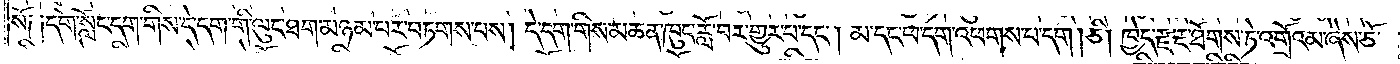སོ༑ ༑དགེ་སློང་དག་གིས་དེ་དག་གིས་ལུང་ཐག་མཉམ་པར་བཏགས་པས། དེ་དག་གིས་མཆན་ཁུང་རློ་བར་གྱུར་པ་དང༌། མ་དང་ཕ་དག་འཕགས་པ་དག །ཅི། ཁྱེད་རྫ་རྔ་ཐོགས་ཏེ་འགྲོའམ་ཞེས་ཅོ་
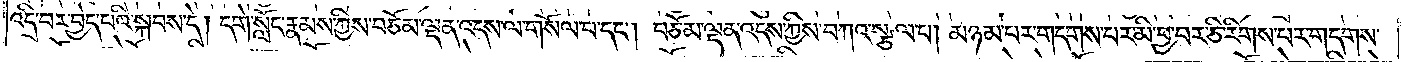འདྲི་བར་བྱེད་པའི་སྐབས་དེ། དགེ་སློང་རྣམས་ཀྱིས་བཅོམ་ལྡན་འདས་ལ་གསོལ་བ་དང༌། བཅོམ་ལྡན་འདས་ཀྱིས་བཀའ་སྩལ་པ། མཉམ་པར་གདགས་པར་མི་བྱ་བར་ཅི་རིགས་པར་གདགས་
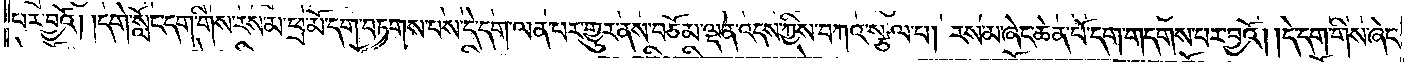པར་བྱའོ། །དགེ་སློང་དག་གིས་རས་མ་ཕྲ་མོ་དག་བཏགས་པས་དེ་དག་ལན་པར་གྱུར་ནས་བཅོམ་ལྡན་འདས་ཀྱིས་བཀའ་སྩལ་པ། རས་མ་ཞེང་ཆེན་པོ་དག་གདགས་པར་བྱའོ། །དེ་དག་གིས་ཞེང་
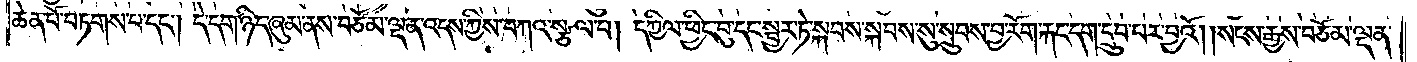ཆེན་པོ་བཏགས་པ་དང༌། དེ་དག་ཉིད་ཞུམ་ནས་བཅོམ་ལྡན་འདས་ཀྱིས་བཀའ་སྩལ་པ། དཀྱིལ་ཕྱིང་བུ་དང་སྦྱར་ཏེ་སྐབས་སྐབས་སུ་སྲུབས་བྱ་རོག་རྐང་དག་དྲུབ་པར་བྱའོ། །སངས་རྒྱས་བཅོམ་ལྡན་
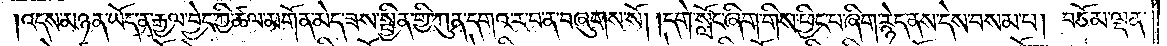འདས་མཉན་ཡོད་ན་རྒྱལ་བྱེད་ཀྱི་ཚལ་མགོན་མེད་ཟས་སྦྱིན་གྱི་ཀུན་དགའ་ར་བ་ན་བཞུགས་སོ། །དགེ་སློང་ཞིག་གིས་ཕྱིང་པ་ཞིག་རྙེད་ནས་དེས་བསམ་པ། བཅོམ་ལྡན་
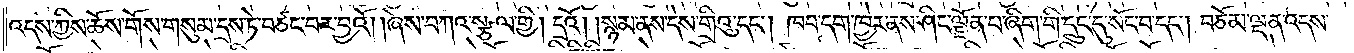འདས་ཀྱིས་ཆོས་གོས་གསུམ་དྲས་ཏེ་བཙང་བར་བྱའོ། །ཞེས་བཀའ་སྩལ་གྱི། དྲའོ། །སྙམ་ནས་དེས་གྲིའུ་དང༌། ཁབ་དག་ཁྱེར་ནས་ཤིང་ལྗོན་པ་ཞིག་གི་དྲུང་དུ་སོང་བ་དང༌། བཅོམ་ལྡན་འདས་
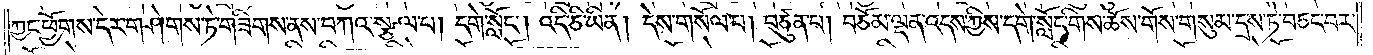ཀྱང་ཕྱོགས་དེར་གཤེགས་ཏེ་གཟིགས་ནས་བཀའ་སྩལ་པ། དགེ་སློང༌། འདི་ཅི་ཡིན། དེས་གསོལ་བ། བཙུན་པ། བཅོམ་ལྡན་འདས་ཀྱིས་དགེ་སློང་གིས་ཆོས་གོས་གསུམ་དྲས་ཏེ་བཅང་བར་
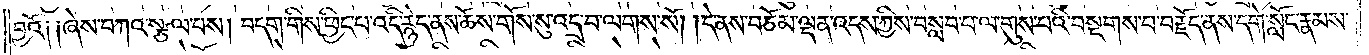བྱའོ༑ ༑ཞེས་བཀའ་སྩལ་པས། བདག་གིས་ཕྱིང་བ་འདི་རྙེད་ནས་ཆོས་གོས་སུ་འདྲ་བ་ལགས་སོ། །དེ་ནས་བཅོམ་ལྡན་འདས་ཀྱིས་བསླབ་པ་ལ་གུས་པའི་བསྔགས་པ་བརྗོད་ནས་དགེ་སློང་རྣམས་
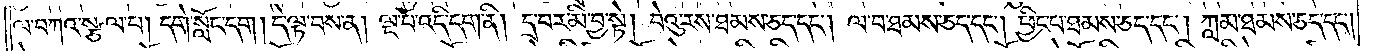ལ་བཀའ་སྩལ་པ། དགེ་སློང་དག །དེ་ལྟ་བས་ན། ལྔ་པོ་འདི་དག་ནི། དྲ་བར་མི་བྱ་སྟེ། བེའུ་རས་ཐམས་ཅད་དང༌། ལ་བ་ཐམས་ཅད་དང༌། ཕྱིང་བ་ཐམས་ཅད་དང༌། ཀླམ་ཐམས་ཅད་དང༌།
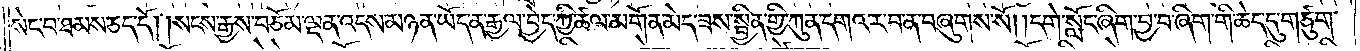སེང་བ་ཐམས་ཅད་དོ། །སངས་རྒྱས་བཅོམ་ལྡན་འདས་མཉན་ཡོད་ན་རྒྱལ་བྱེད་ཀྱི་ཚལ་མགོན་མེད་ཟས་སྦྱིན་གྱི་ཀུན་དགའ་ར་བ་ན་བཞུགས་སོ། །དགེ་སློང་ཞིག་བྱ་བ་ཞིག་གི་ཆེད་དུ་གཙུག་
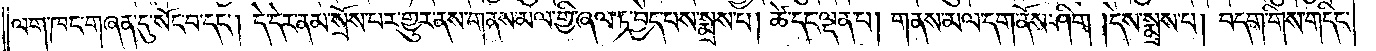ལག་ཁང་གཞན་དུ་སོང་བ་དང༌། དེ་དེར་ནམ་སྲོས་པར་གྱུར་ནས་གནས་མལ་གྱི་ཞལ་ཏ་བྱེད་པས་སྨྲས་པ། ཚེ་དང་ལྡན་པ། གནས་མལ་དག་ནོས་ཤིག །དེས་སྨྲས་པ། བདག་གིས་གདིང་
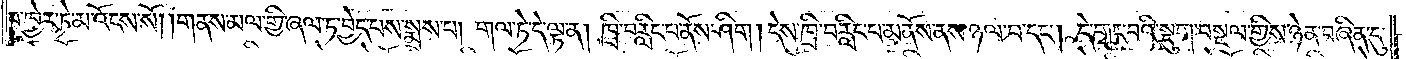བ་ཁྱེར་ཏེ་མ་འོངས་སོ། །གནས་མལ་གྱི་ཞལ་ཏ་བྱེད་པས་སྨྲས་པ། གལ་ཏེ་དེ་ལྟ་ན། ཁྲི་བརླིང་བ་ནོས་ཤིག །དེས་ཁྲི་བརླིང་བ་མནོས་ནས་ཉལ་བ་དང༌། དེ་གྲང་བའི་སྡུག་བསྔལ་གྱིས་ཉེན་བཞིན་དུ་
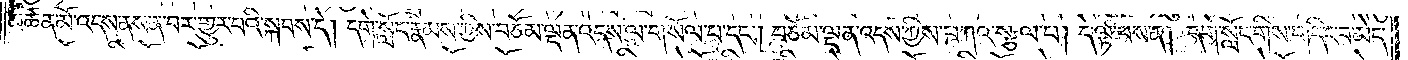མཚན་མོ་འདས་ནས་ན་བར་གྱུར་པའི་སྐབས་དེ། དགེ་སློང་རྣམས་ཀྱིས་བཅོམ་ལྡན་འདས་ལ་གསོལ་བ་དང༌། བཅོམ་ལྡན་འདས་ཀྱིས་བཀའ་སྩལ་པ། དེ་ལྟ་བས་ན། དགེ་སློང་གིས་གདིང་བ་མེད་
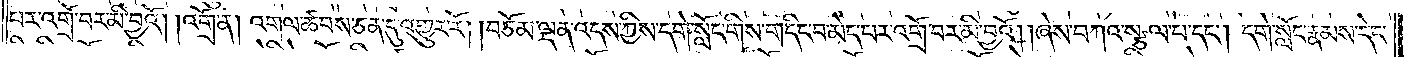པར་འགྲོ་བར་མི་བྱའོ། །འགྲོ་ན། འགལ་ཚབས་ཅན་དུ་འགྱུར་རོ། །བཅོམ་ལྡན་འདས་ཀྱིས་དགེ་སློང་གིས་གདིང་བ་མེད་པར་འགྲོ་བར་མི་བྱའོ། །ཞེས་བཀའ་སྩལ་པ་དང༌། དགེ་སློང་རྣམས་དེང་
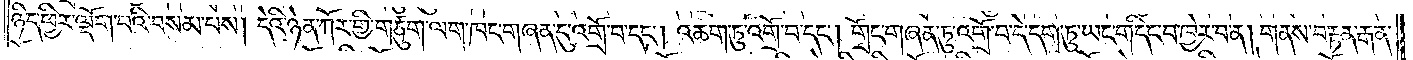ཉིད་ཕྱིར་ལྡོག་པའི་བསམ་པས། དེའི་ཉེན་ཀོར་གྱི་གཙུག་ལག་ཁང་གཞན་དུ་འགྲོ་བ་དང༌། འཆག་ཏུ་འགྲོ་བ་དང༌། གྲོང་གཞན་ཏུ་འགྲོ་བ་དེ་དག་ཏུ་ཡང་གདིང་བ་ཁྱེར་བ་ན། གནས་བརྟན་རྒན་
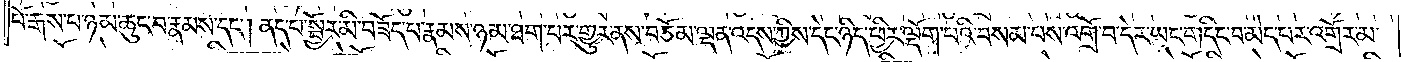པོ་རྒས་པ་ཉམ་ཆུང་བ་རྣམས་དང༌། ནད་པ་སྦྱོར་མི་བཟོད་པ་རྣམས་ཉམ་ཐག་པར་གྱུར་ནས་བཅོམ་ལྡན་འདས་ཀྱིས་དེང་ཉིད་ཕྱིར་ལྡོག་པའི་བསམ་པས་འགྲོ་བ་དེར་ཡང་གདིང་བ་མེད་པར་འགྲོར་མ་
